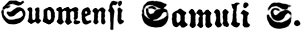Suomensi Samuli S.
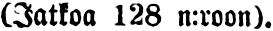(Jatkoa 128 n:roon).
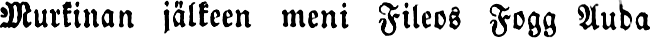Murkinan jälkeen meni Fileos Fogg Auba
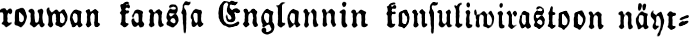rouwan kanssa Englannin konsuliwirastoon näyt-
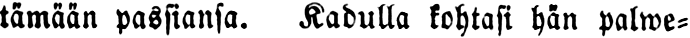tämään passiansa. Kadulla kohtasi hän palwe-
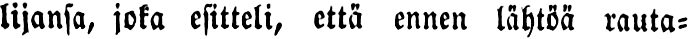lijansa, joka esitteli, että ennen lähtöä rauta-
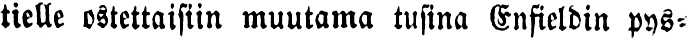tielle ostettaisiin muutama tusina Enfieldin pys-
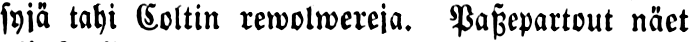syjä tahi Coltin rewolwereja. Paszepartout näet
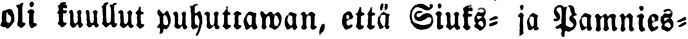oli kuullut puhuttawan, että Siuks- ja Pamnies-
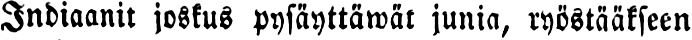Indiaanit joskus pysäyttäwät junia, ryöstääkseen
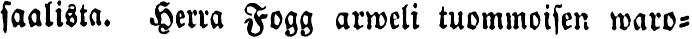saalista. Herra Fogg arweli tuommoisen waro-
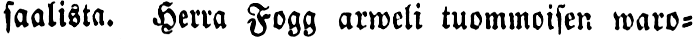waisuuskeinon olewan aiwan tarpeetonta, mutta
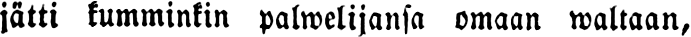jätti kumminkin palwelijansa omaan waltaan,
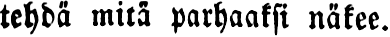tehdä mitä parhaaksi näkee.
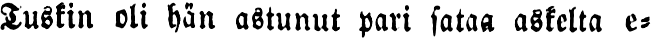Tuskin oli hän astunut pari sataa askelta e-
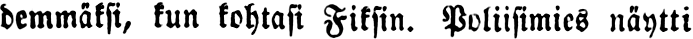demmäksi, kun kohtasi Fiksin. Poliisimies näytti
